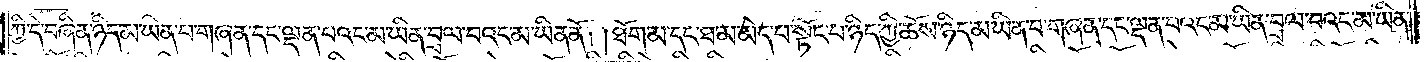ཀྱི་དེ་བཞིན་ཉིད་མ་ཡིན་པ་གཞན་དང་ལྡན་པའང་མ་ཡིན་བྲལ་བའང་མ་ཡིན་ནོ། །ཐོག་མ་དང་ཐ་མ་མེད་པ་སྟོང་པ་ཉིད་ཀྱི་ཆོས་ཉིད་མ་ཡིན་པ་གཞན་དང་ལྡན་པའང་མ་ཡིན་བྲལ་བའང་མ་ཡིན་
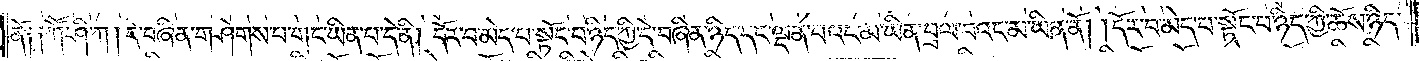ནོ༑ ༑ཀཽ་ཤི་ཀ། དེ་བཞིན་གཤེགས་པ་གང་ཡིན་པ་དེ་ནི། དོར་བ་མེད་པ་སྟོང་པ་ཉིད་ཀྱི་དེ་བཞིན་ཉིད་དང་ལྡན་པའང་མ་ཡིན་བྲལ་བའང་མ་ཡིན་ནོ། དོར་བ་མེད་པ་སྟོང་པ་ཉིད་ཀྱི་ཆོས་ཉིད་
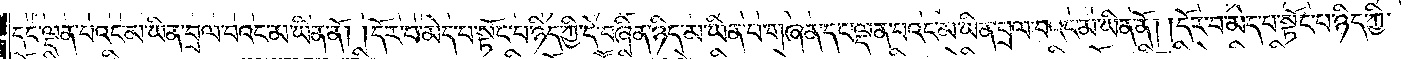དང་ལྡན་པའང་མ་ཡིན་བྲལ་བའང་མ་ཡིན་ནོ། །དོར་བ་མེད་པ་སྟོང་པ་ཉིད་ཀྱི་དེ་བཞིན་ཉིད་མ་ཡིན་པ་གཞན་དང་ལྡན་པའང་མ་ཡིན་བྲལ་བའང་མ་ཡིན་ནོ། །དོར་བ་མེད་པ་སྟོང་པ་ཉིད་ཀྱི་
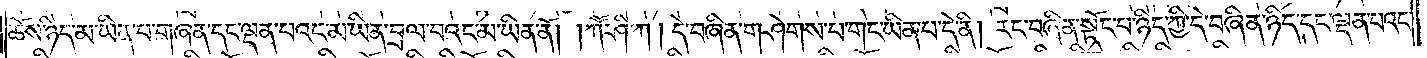ཆོས་ཉིད་མ་ཡིན་པ་གཞན་དང་ལྡན་པའང་མ་ཡིན་བྲལ་བའང་མ་ཡིན་ནོ། །ཀཽ་ཤི་ཀ། དེ་བཞིན་གཤེགས་པ་གང་ཡིན་པ་དེ་ནི། རང་བཞིན་སྟོང་པ་ཉིད་ཀྱི་དེ་བཞིན་ཉིད་དང་ལྡན་པའང་
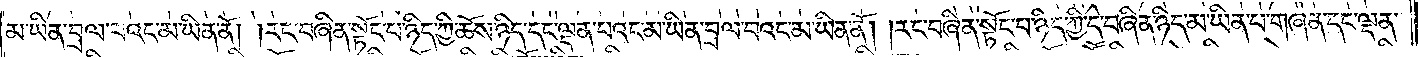མ་ཡིན་བྲལ་བའང་མ་ཡིན་ནོ། །རང་བཞིན་སྟོང་པ་ཉིད་ཀྱི་ཆོས་ཉིད་དང་ལྡན་པའང་མ་ཡིན་བྲལ་བའང་མ་ཡིན་ནོ། །རང་བཞིན་སྟོང་པ་ཉིད་ཀྱི་དེ་བཞིན་ཉིད་མ་ཡིན་པ་གཞན་དང་ལྡན་
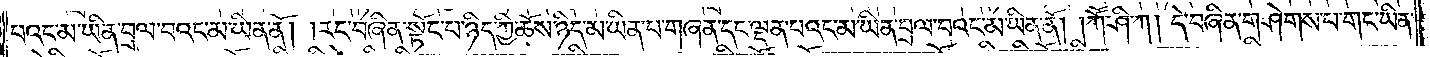པའང་མ་ཡིན་བྲལ་བའང་མ་ཡིན་ནོ། །རང་བཞིན་སྟོང་པ་ཉིད་ཀྱི་ཆོས་ཉིད་མ་ཡིན་པ་གཞན་དང་ལྡན་པའང་མ་ཡིན་བྲལ་བའང་མ་ཡིན་ནོ། །ཀཽ་ཤི་ཀ། དེ་བཞིན་གཤེགས་པ་གང་ཡིན་
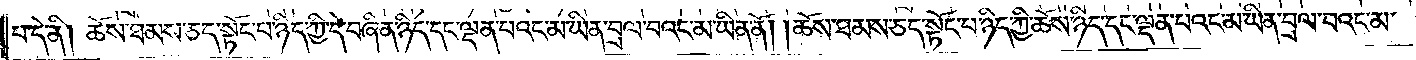པ་དེ་ནི། ཆོས་ཐམས་ཅད་སྟོང་པ་ཉིད་ཀྱི་དེ་བཞིན་ཉིད་དང་ལྡན་པའང་མ་ཡིན་བྲལ་བའང་མ་ཡིན་ནོ། །ཆོས་ཐམས་ཅད་སྟོང་པ་ཉིད་ཀྱི་ཆོས་ཉིད་དང་ལྡན་པའང་མ་ཡིན་བྲལ་བའང་མ་
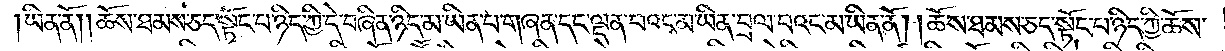ཡིན་ནོ། །ཆོས་ཐམས་ཅད་སྟོང་པ་ཉིད་ཀྱི་དེ་བཞིན་ཉིད་མ་ཡིན་པ་གཞན་དང་ལྡན་པའང་མ་ཡིན་བྲལ་བའང་མ་ཡིན་ནོ། །ཆོས་ཐམས་ཅད་སྟོང་པ་ཉིད་ཀྱི་ཆོས་
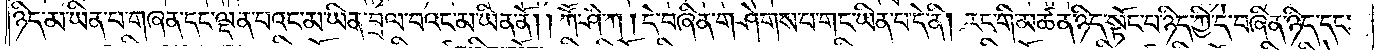ཉིད་མ་ཡིན་པ་གཞན་དང་ལྡན་པའང་མ་ཡིན་བྲལ་བའང་མ་ཡིན་ནོ། །ཀཽ་ཤི་ཀ། དེ་བཞིན་གཤེགས་པ་གང་ཡིན་པ་དེ་ནི། རང་གི་མཚན་ཉིད་སྟོང་པ་ཉིད་ཀྱི་དེ་བཞིན་ཉིད་དང་
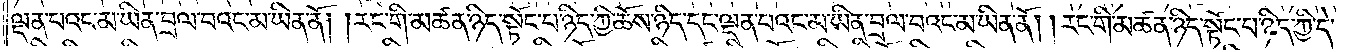ལྡན་པའང་མ་ཡིན་བྲལ་བའང་མ་ཡིན་ནོ། །རང་གི་མཚན་ཉིད་སྟོང་པ་ཉིད་ཀྱི་ཆོས་ཉིད་དང་ལྡན་པའང་མ་ཡིན་བྲལ་བའང་མ་ཡིན་ནོ། །རང་གི་མཚན་ཉིད་སྟོང་པ་ཉིད་ཀྱི་དེ་
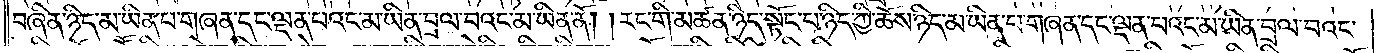བཞིན་ཉིད་མ་ཡིན་པ་གཞན་དང་ལྡན་པའང་མ་ཡིན་བྲལ་བའང་མ་ཡིན་ནོ། །རང་གི་མཚན་ཉིད་སྟོང་པ་ཉིད་ཀྱི་ཆོས་ཉིད་མ་ཡིན་པ་གཞན་དང་ལྡན་པའང་མ་ཡིན་བྲལ་བའང་
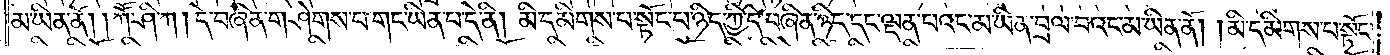མ་ཡིན་ནོ། །ཀཽ་ཤི་ཀ། དེ་བཞིན་གཤེགས་པ་གང་ཡིན་པ་དེ་ནི། མི་དམིགས་པ་སྟོང་པ་ཉིད་ཀྱི་དེ་བཞིན་ཉིད་དང་ལྡན་པའང་མ་ཡིན་བྲལ་བའང་མ་ཡིན་ནོ། །མི་དམིགས་པ་སྟོང་
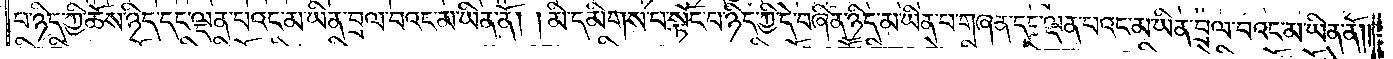པ་ཉིད་ཀྱི་ཆོས་ཉིད་དང་ལྡན་པའང་མ་ཡིན་བྲལ་བའང་མ་ཡིན་ནོ། །མི་དམིགས་པ་སྟོང་པ་ཉིད་ཀྱི་དེ་བཞིན་ཉིད་མ་ཡིན་པ་གཞན་དང་ལྡན་པའང་མ་ཡིན་བྲལ་བའང་མ་ཡིན་ནོ༎
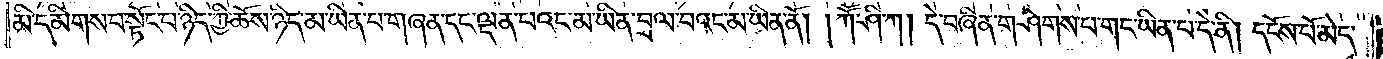མི་དམིགས་པ་སྟོང་པ་ཉིད་ཀྱི་ཆོས་ཉིད་མ་ཡིན་པ་གཞན་དང་ལྡན་བའང་མ་ཡིན་བྲལ་བའང་མ་ཡིན་ནོ། །ཀཽ་ཤི་ཀ། དེ་བཞིན་གཤེགས་པ་གང་ཡིན་པ་དེ་ནི། དངོས་པོ་མེད་
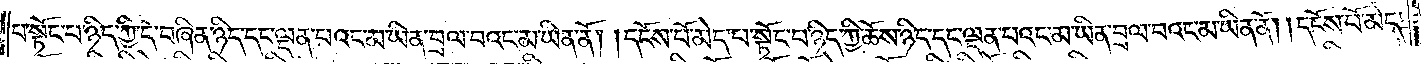པ་སྟོང་པ་ཉིད་ཀྱི་དེ་བཞིན་ཉིད་དང་ལྡན་པའང་མ་ཡིན་བྲལ་བའང་མ་ཡིན་ནོ། །དངོས་པོ་མེད་པ་སྟོང་པ་ཉིད་ཀྱི་ཆོས་ཉིད་དང་ལྡན་པའང་མ་ཡིན་བྲལ་བའང་མ་ཡིན་ནོ། །དངོས་པོ་མེད་
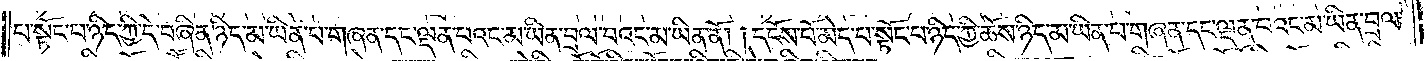པ་སྟོང་པ་ཉིད་ཀྱི་དེ་བཞིན་ཉིད་མ་ཡིན་པ་གཞན་དང་ལྡན་པའང་མ་ཡིན་བྲལ་བའང་མ་ཡིན་ནོ། །དངོས་པོ་མེད་པ་སྟོང་པ་ཉིད་ཀྱི་ཆོས་ཉིད་མ་ཡིན་པ་གཞན་དང་ལྡན་པའང་མ་ཡིན་བྲལ་
